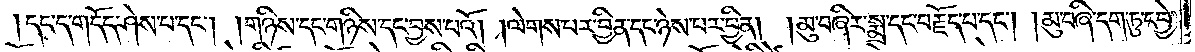དང་ད་གདོད་ཤེས་པ་དང༌། །གཉིས་དང་གཉིས་དང་བྱས་པའོ། །ལེགས་པར་བྱིན་དང་ཉེས་པར་བྱིན། །མུ་བཞིར་སྨྲ་དང་བརྗོད་པ་དང༌། །མུ་བཞི་དག་ཏུ་དབྱེ་
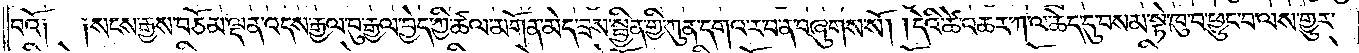བའོ།    །སངས་རྒྱས་བཅོམ་ལྡན་འདས་རྒྱལ་བུ་རྒྱལ་བྱེད་ཀྱི་ཚལ་མགོན་མེད་ཟས་སྦྱིན་གྱི་ཀུན་དགའ་ར་བ་ན་བཞུགས་སོ། །དེའི་ཚེ་འཆར་ཀ་ལ་ཆེད་དུ་བསམ་སྟེ་ཁུ་བ་ཕྱུང་བ་ལས་གྱུར་
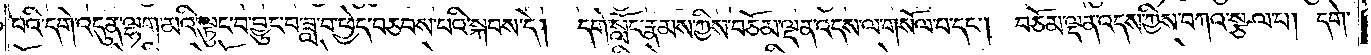པའི་དགེ་འདུན་ལྷག་མའི་ལྟུང་བ་བྱུང་བ་ཟླ་བ་ཕྱེད་བཅབས་པའི་སྐབས་དེ། དགེ་སློང་རྣམས་ཀྱིས་བཅོམ་ལྡན་འདས་ལ་གསོལ་བ་དང༌། བཅོམ་ལྡན་འདས་ཀྱིས་བཀའ་སྩལ་པ། དགེ་
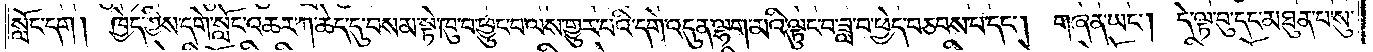སློང་དག། ཁྱེད་ཀྱིས་དགེ་སློང་འཆར་ཀ་ཆེད་དུ་བསམ་སྟེ་ཁུ་བ་ཕྱུང་བ་ལས་གྱུར་པའི་དགེ་འདུན་ལྷག་མའི་ལྟུང་བ་ཟླ་བ་ཕྱེད་བཅབས་པ་དང༌། གཞན་ཡང༌། དེ་ལྟ་བུ་དང་མཐུན་པ་སུ་
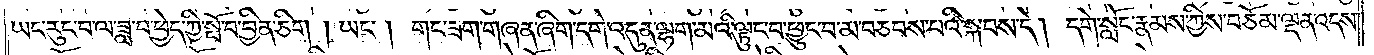ཡང་རུང་བ་ལ་ཟླ་བ་ཕྱེད་ཀྱི་སྤོ་བ་བྱིན་ཅིག། ཡང༌། གང་ཟག་གཞན་ཞིག་དགེ་འདུན་ལྷག་མའི་ལྟུང་བ་ཕྱུང་བ་མ་བཅབས་པའི་སྐབས་དེ། དགེ་སློང་རྣམས་ཀྱིས་བཅོམ་ལྡན་འདས་
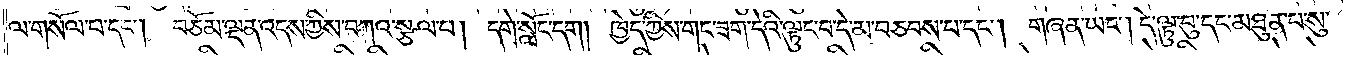ལ་གསོལ་བ་དང༌། བཅོམ་ལྡན་འདས་ཀྱིས་བཀའ་སྩལ་པ། དགེ་སློང་དག། ཁྱེད་ཀྱིས་གང་ཟག་དེའི་ལྟུང་བ་དེ་མ་བཅབས་པ་དང༌། གཞན་ཡང༌། དེ་ལྟུ་བུ་དང་མཐུན་པ་སུ་
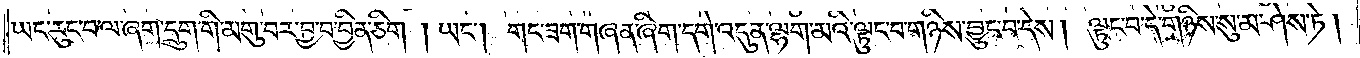ཡང་རུང་བ་ལ་ཞག་དྲུག་གི་མགུ་བར་བྱ་བ་བྱིན་ཅིག །ཡང༌། གང་ཟག་གཞན་ཞིག་དགེ་འདུན་ལྷག་མའི་ལྟུང་བ་གཉིས་བྱུང་བ་དེས། ལྟུང་བ་དེ་གཉིས་སུ་མ་ཤེས་ཏེ།
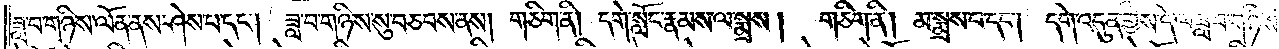ཟླ་བ་གཉིས་ལོན་ནས་ཤེས་པ་དང༌། ཟླ་བ་གཉིས་སུ་བཅབས་ནས། གཅིག་ནི། དགེ་སློང་རྣམས་ལ་སྨྲས།   གཅིག་ནི། མ་སྨྲས་པ་དང༌། དགེ་འདུན་གྱིས་དེ་ལ་ཟླ་བ་གཉིས་
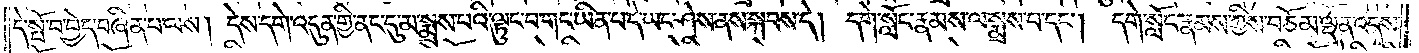དེ་སྤོ་བ་བྱེད་བཞིན་པ་ལས། དེས་དགེ་འདུན་གྱི་ནང་དུ་མ་སྨྲས་པའི་ལྟུང་བ་གང་ཡིན་པ་དེ་ཡང་ཤེས་ནས་སྐབས་དེ། དགེ་སློང་རྣམས་ལ་སྨྲས་པ་དང༌། དགེ་སློང་རྣམས་ཀྱིས་བཅོམ་ལྡན་འདས
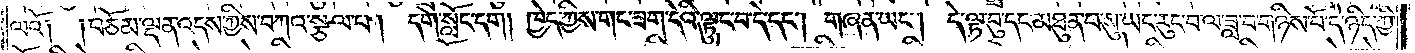ལའོ། །བཅོམ་ལྡན་འདས་ཀྱིས་བཀའ་སྩལ་པ། དགེ་སློང་དག། ཁྱེད་ཀྱིས་གང་ཟག་དེའི་ལྟུང་བ་དེ་དང༌། གཞན་ཡང༌། དེ་ལྟ་བུ་དང་མཐུན་པ་སུ་ཡང་རུང་བ་ལ་ཟླ་བ་གཉིས་པོ་དེ་ཉིད་ཀྱི་
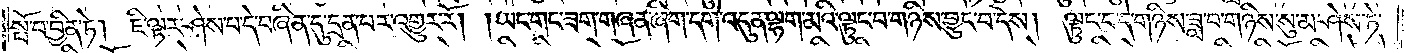སྤོ་བ་བྱིན་ཏེ། ཇི་ལྟར་ཤེས་པ་དེ་བཞིན་དུ་དྲན་པར་འགྱུར་རོ། །ཡང་གང་ཟག་གཞན་ཞིག་དགེ་འདུན་ལྷག་མའི་ལྟུང་བ་གཉིས་བྱུང་བ་དེས། ལྟུང་བ་དེ་གཉིས་ཟླ་བ་གཉིས་སུ་མ་ཤེས་ཏེ་
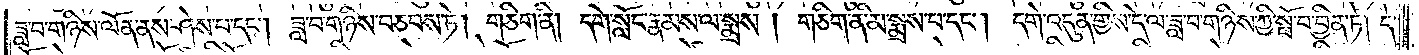ཟླ་བ་གཉིས་ལོན་ནས་ཤེས་པ་དང༌། ཟླ་བ་གཉིས་བཅབས་ཏེ། གཅིག་ནི། དགེ་སློང་རྣམས་ལ་སྨྲས། གཅིག་ནི་མ་སྨྲས་པ་དང༌། དགེ་འདུན་གྱིས་དེ་ལ་ཟླ་བ་གཉིས་ཀྱི་སྤོ་བ་བྱིན་ཏེ། དེ་
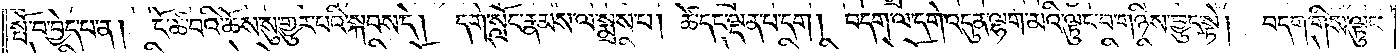སྤོ་བ་བྱེད་པ་ན། ངོ་ཚ་བའི་ཆོས་སུ་གྱུར་པའི་སྐབས་དེ། དགེ་སློང་རྣམས་ལ་སྨྲས་པ། ཚེ་དང་ལྡན་པ་དག། བདག་ལ་དགེ་འདུན་ལྷག་མའི་ལྟུང་བ་གཉིས་བྱུང་སྟེ།  བདག་གིས་ལྟུང་
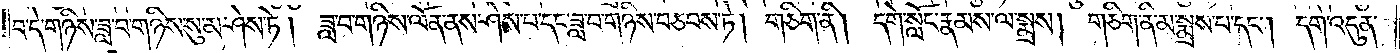བ་དེ་གཉིས་ཟླ་བ་གཉིས་སུ་མ་ཤེས་ཏེ། ཟླ་བ་གཉིས་ལོན་ནས་ཤེས་པ་དང་ཟླ་བ་གཉིས་བཅབས་ཏེ། གཅིག་ནི། དགེ་སློང་རྣམས་ལ་སྨྲས། གཅིག་ནི་མ་སྨྲས་པ་དང༌། དགེ་འདུན་
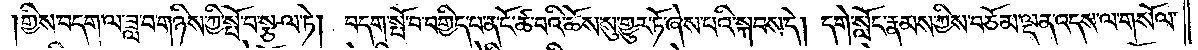གྱིས་བདག་ལ་ཟླ་བ་གཉིས་ཀྱི་སྤོ་བ་སྩལ་ཏེ། བདག་སྤོ་བ་བགྱིད་པ་ན་ངོ་ཚ་བའི་ཆོས་སུ་གྱུར་རོ་ཞེས་པའི་སྐབས་དེ། དགེ་སློང་རྣམས་ཀྱིས་བཅོམ་ལྡན་འདས་ལ་གསོལ་
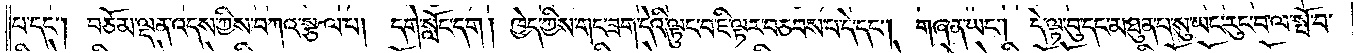པ་དང༌། བཅོམ་ལྡན་འདས་ཀྱིས་བཀའ་སྩལ་པ། དགེ་སློང་དག། ཁྱེད་ཀྱིས་གང་ཟག་དེའི་ལྟུང་བ་ཇི་ལྟར་བཅབས་པ་དེ་དང༌། གཞན་ཡང་།  དེ་ལྟ་བུ་དང་མཐུན་པ་སུ་ཡང་རུང་བ་ལ་སྤོ་བ་
